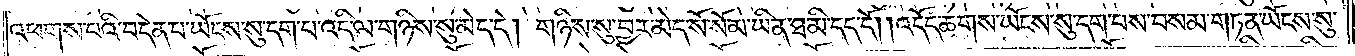འཕགས་པའི་བདེན་པ་ཡོངས་སུ་དག་པ་འདི་ལ་གཉིས་སུ་མེད་དེ། གཉིས་སུ་བྱར་མེད་སོ་སོ་མ་ཡིན་ཐ་མི་དད་དོ། །འདོད་ཆགས་ཡོངས་སུ་དག་པས་བསམ་གཏན་ཡོངས་སུ་
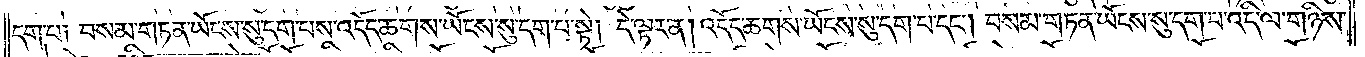དག་པ༑ བསམ་གཏན་ཡོངས་སུ་དག་པས་འདོད་ཆགས་ཡོངས་སུ་དག་པ་སྟེ། དེ་ལྟར་ན། འདོད་ཆགས་ཡོངས་སུ་དག་པ་དང༌། བསམ་གཏན་ཡོངས་སུ་དག་པ་འདི་ལ་གཉིས་
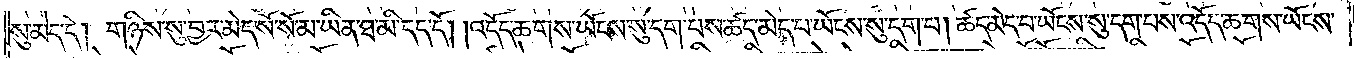སུ་མེད་དེ། གཉིས་སུ་བྱར་མེད་སོ་སོ་མ་ཡིན་ཐ་མི་དད་དོ། །འདོད་ཆགས་ཡོངས་སུ་དག་པས་ཚད་མེད་པ་ཡོངས་སུ་དག་པ། ཚད་མེད་པ་ཡོངས་སུ་དག་པས་འདོད་ཆགས་ཡོངས་
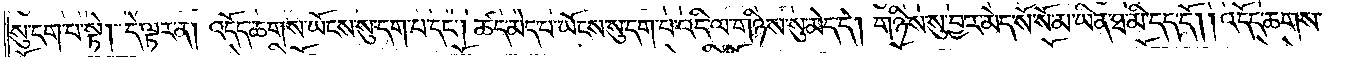སུ་དག་པ་སྟེ། དེ་ལྟར་ན། འདོད་ཆགས་ཡོངས་སུ་དག་པ་དང༌། ཚད་མེད་པ་ཡོངས་སུ་དག་པ་འདི་ལ་གཉིས་སུ་མེད་དེ། གཉིས་སུ་བྱར་མེད་སོ་སོ་མ་ཡིན་ཐ་མི་དད་དོ། །འདོད་ཆགས་
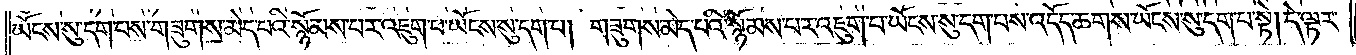ཡོངས་སུ་དག་པས་གཟུགས་མེད་པའི་སྙོམས་པར་འཇུག་པ་ཡོངས་སུ་དག་པ། གཟུགས་མེད་པའི་སྙོམས་པར་འཇུག་པ་ཡོངས་སུ་དག་པས་འདོད་ཆགས་ཡོངས་སུ་དག་པ་སྟེ། དེ་ལྟར་
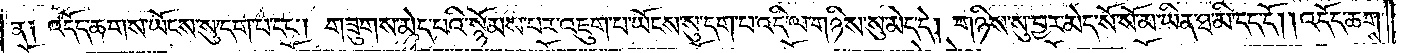ན༑ འདོད་ཆགས་ཡོངས་སུ་དག་པ་དང༌། གཟུགས་མེད་པའི་སྙོམས་པར་འཇུག་པ་ཡོངས་སུ་དག་པ་འདི་ལ་གཉིས་སུ་མེད་དེ། གཉིས་སུ་བྱར་མེད་སོ་སོ་མ་ཡིན་ཐ་མི་དད་དོ། །འདོད་ཆགས་
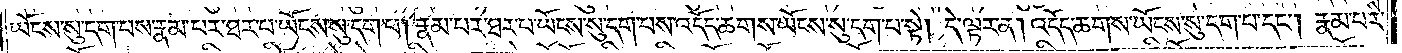ཡོངས་སུ་དག་པས་རྣམ་པར་ཐར་པ་ཡོངས་སུ་དག་པ། རྣམ་པར་ཐར་པ་ཡོངས་སུ་དག་པས་འདོད་ཆགས་ཡོངས་སུ་དག་པ་སྟེ། དེ་ལྟར་ན། འདོད་ཆགས་ཡོངས་སུ་དག་པ་དང༌། རྣམ་པར་
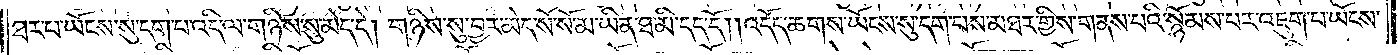ཐར་པ་ཡོངས་སུ་དག་པ་འདི་ལ་གཉིས་སུ་མེད་དེ། གཉིས་སུ་བྱར་མེད་སོ་སོ་མ་ཡིན་ཐ་མི་དད་དོ། །འདོད་ཆགས་ཡོངས་སུ་དག་པས་མཐར་གྱིས་གནས་པའི་སྙོམས་པར་འཇུག་པ་ཡོངས་
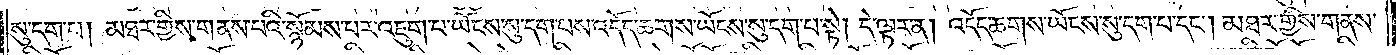སུ་དག་པ། མཐར་གྱིས་གནས་པའི་སྙོམས་པར་འཇུག་པ་ཡོངས་སུ་དག་པས་འདོད་ཆགས་ཡོངས་སུ་དག་པ་སྟེ། དེ་ལྟར་ན། འདོད་ཆགས་ཡོངས་སུ་དག་པ་དང༌། མཐར་གྱིས་གནས་
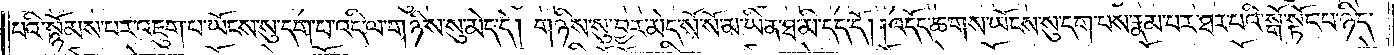པའི་སྙོམས་པར་འཇུག་པ་ཡོངས་སུ་དག་པ་འདི་ལ་གཉིས་སུ་མེད་དེ། གཉིས་སུ་བྱར་མེད་སོ་སོ་མ་ཡིན་ཐ་མི་དད་དོ། །འདོད་ཆགས་ཡོངས་སུ་དག་པས་རྣམ་པར་ཐར་པའི་སྒོ་སྟོང་པ་ཉིད་
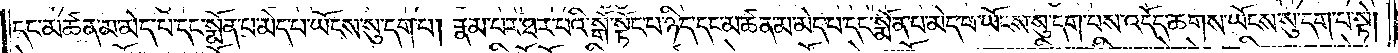དང་མཚན་མ་མེད་པ་དང་སྨོན་པ་མེད་པ་ཡོངས་སུ་དག་པ། རྣམ་པར་ཐར་པའི་སྒོ་སྟོང་པ་ཉིད་དང་མཚན་མ་མེད་པ་དང་སྨོན་པ་མེད་པ་ཡོངས་སུ་དག་པས་འདོད་ཆགས་ཡོངས་སུ་དག་པ་སྟེ།
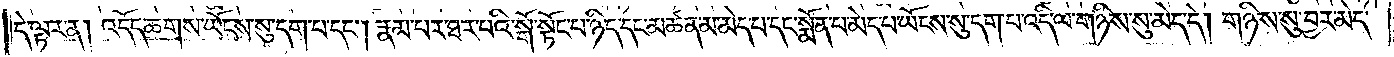དེ་ལྟར་ན། འདོད་ཆགས་ཡོངས་སུ་དག་པ་དང༌། རྣམ་པར་ཐར་པའི་སྒོ་སྟོང་པ་ཉིད་དང་མཚན་མ་མེད་པ་དང་སྨོན་པ་མེད་པ་ཡོངས་སུ་དག་པ་འདི་ལ་གཉིས་སུ་མེད་དེ། གཉིས་སུ་བྱར་མེད་
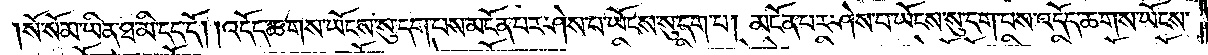སོ་སོ་མ་ཡིན་ཐ་མི་དད་དོ། །འདོད་ཆགས་ཡོངས་སུ་དག་པས་མངོན་པར་ཤེས་པ་ཡོངས་སུ་དག་པ། མངོན་པར་ཤེས་པ་ཡོངས་སུ་དག་པས་འདོད་ཆགས་ཡོངས་
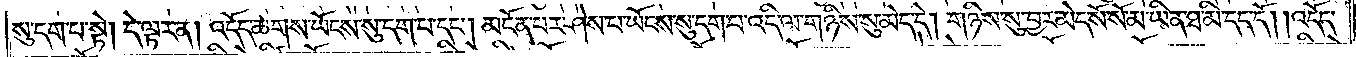སུ་དག་པ་སྟེ། དེ་ལྟར་ན། འདོད་ཆགས་ཡོངས་སུ་དག་པ་དང༌། མངོན་པར་ཤེས་པ་ཡོངས་སུ་དག་པ་འདི་ལ་གཉིས་སུ་མེད་དེ། གཉིས་སུ་བྱར་མེད་སོ་སོ་མ་ཡིན་ཐ་མི་དད་དོ། །འདོད་
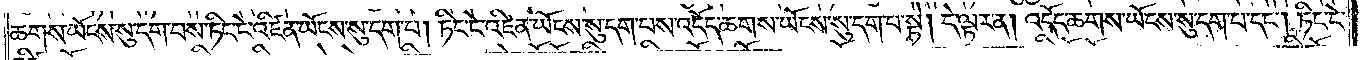ཆགས་ཡོངས་སུ་དག་པས་ཏིང་ངེ་འཛིན་ཡོངས་སུ་དག་པ། ཏིང་ངེ་འཛིན་ཡོངས་སུ་དག་པས་འདོད་ཆགས་ཡོངས་སུ་དག་པ་སྟེ། དེ་ལྟར་ན། འདོད་ཆགས་ཡོངས་སུ་དག་པ་དང༌། ཏིང་ངེ་
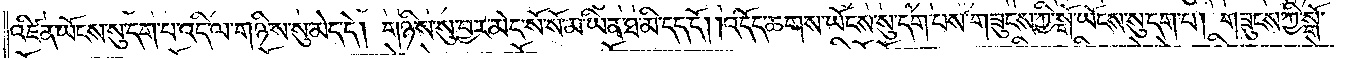འཛིན་ཡོངས་སུ་དག་པ་འདི་ལ་གཉིས་སུ་མེད་དེ། གཉིས་སུ་བྱར་མེད་སོ་སོ་མ་ཡིན་ཐ་མི་དད་དོ། །འདོད་ཆགས་ཡོངས་སུ་དག་པས་གཟུངས་ཀྱི་སྒོ་ཡོངས་སུ་དག་པ། གཟུངས་ཀྱི་སྒོ་
